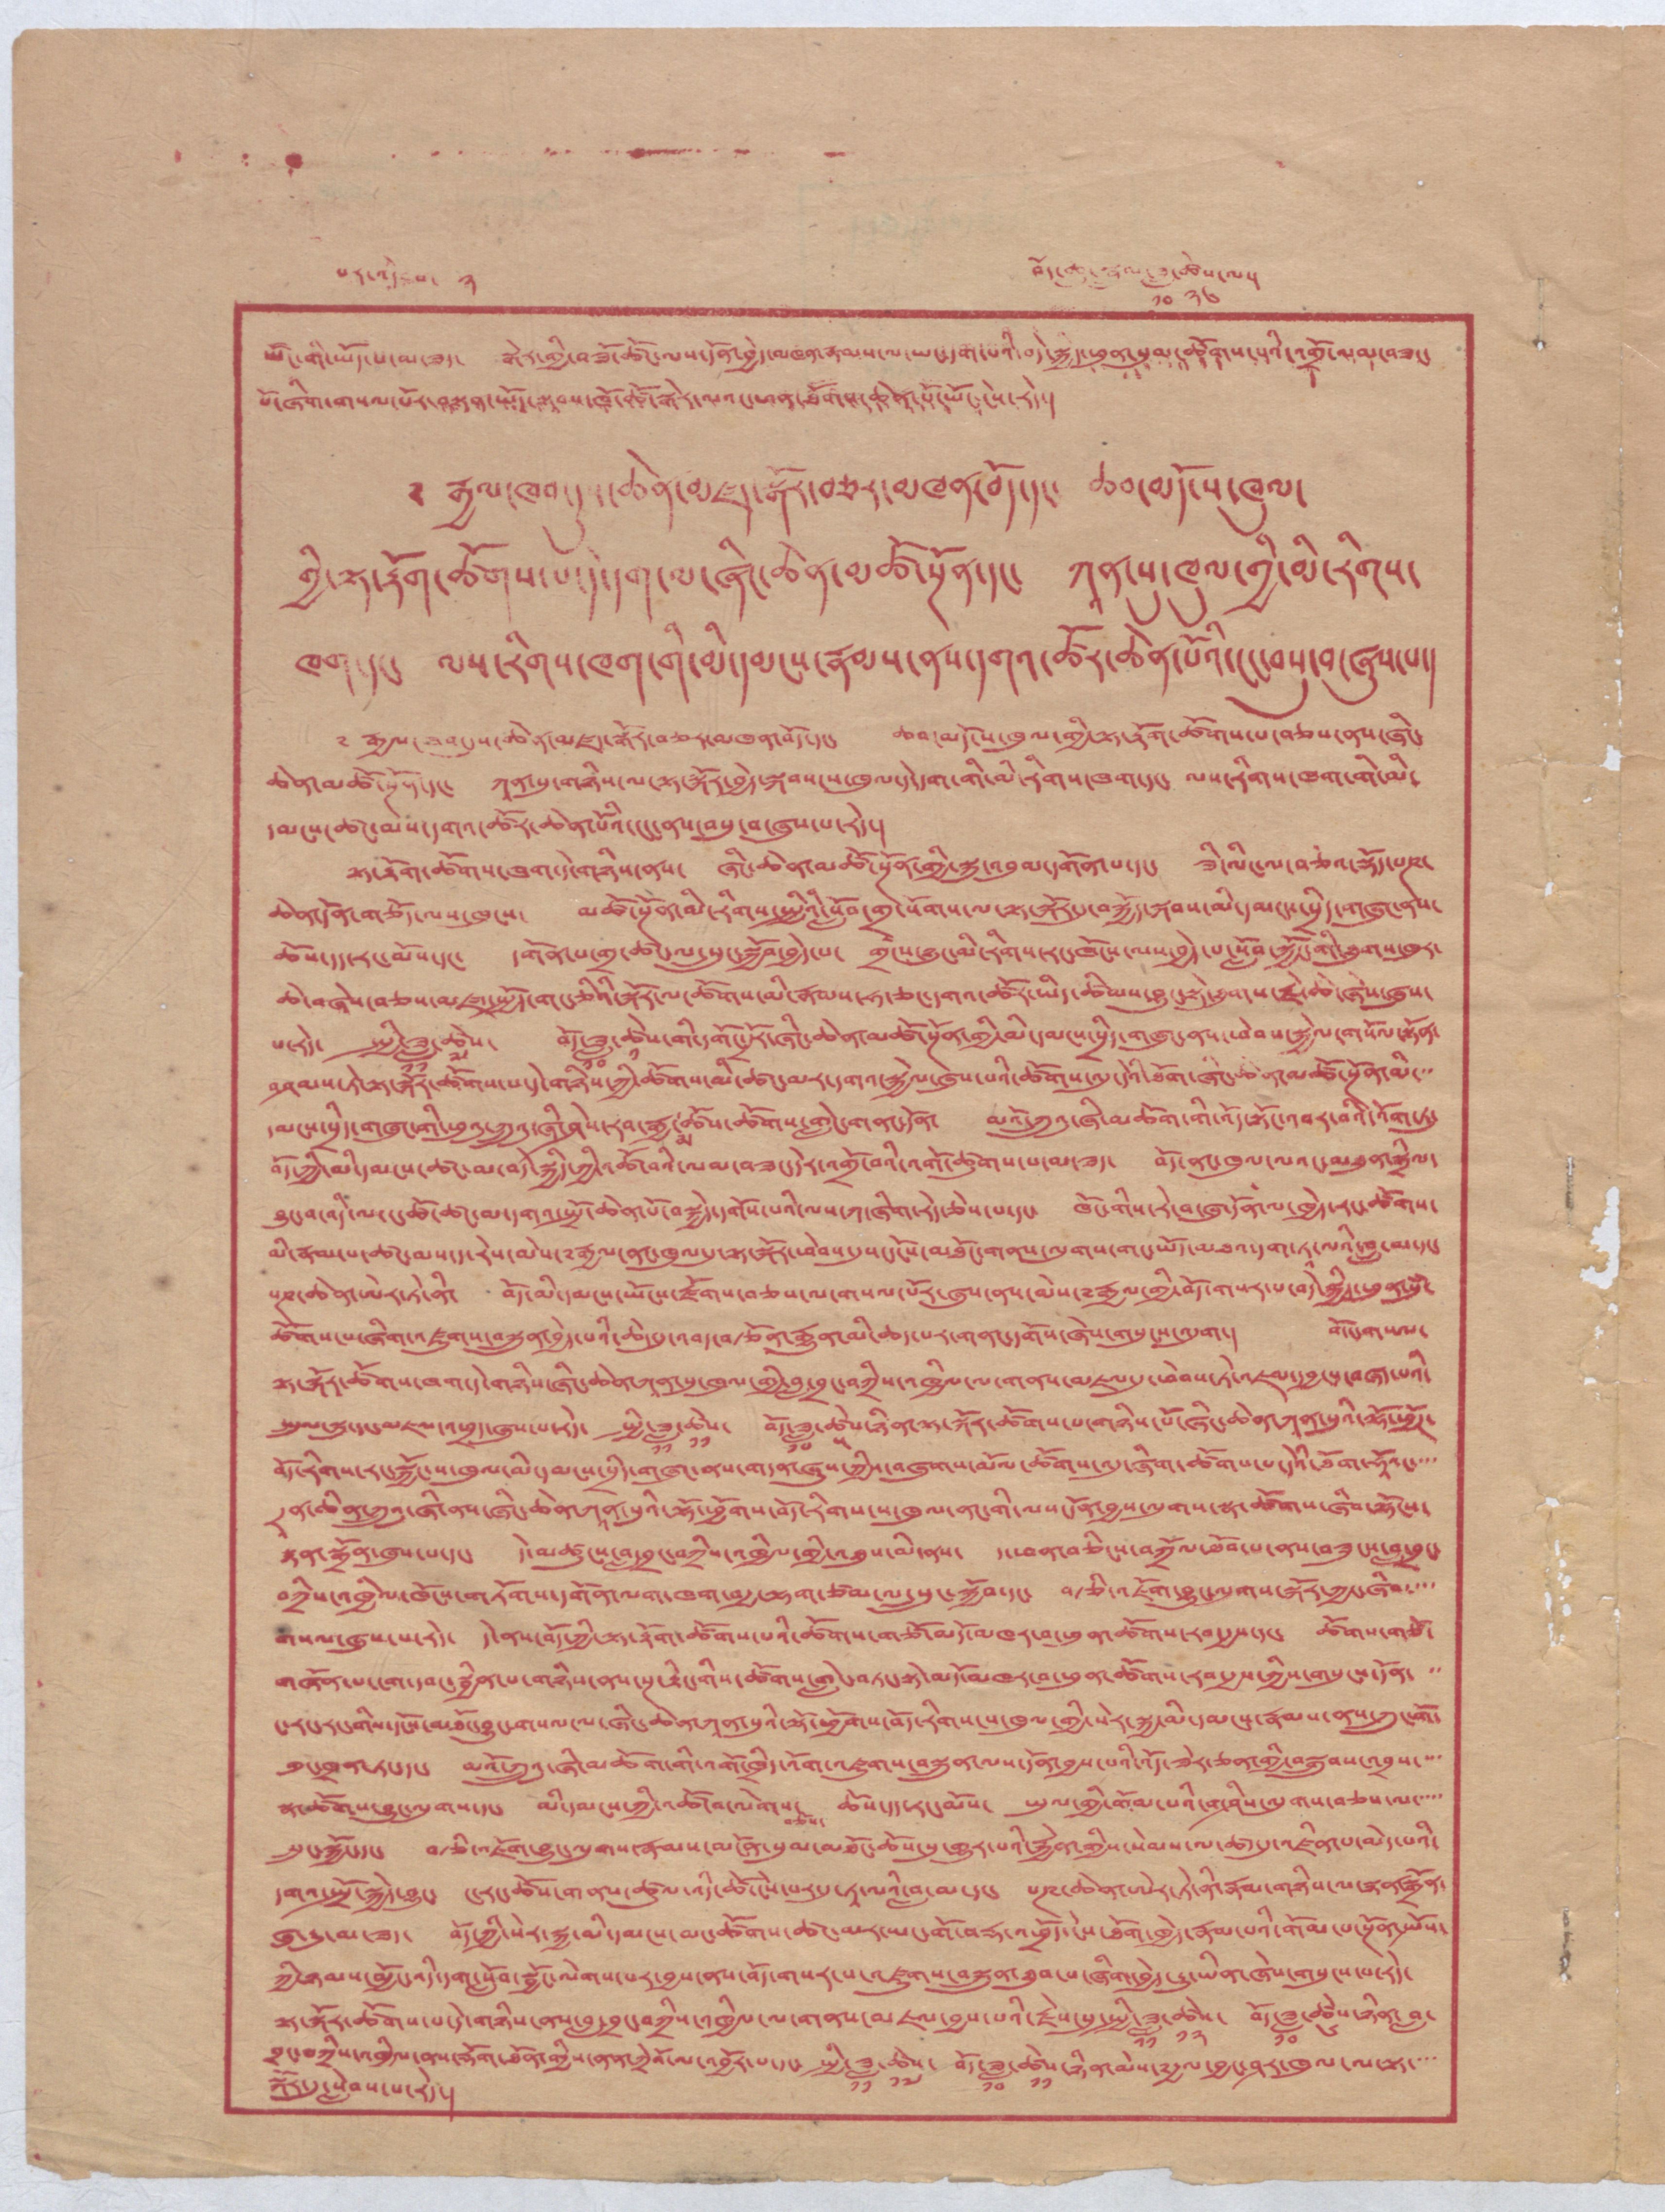པར་འདེབས་ ༣ བོད་ཆུ་སྦྲུལ་ཟླ་
༡༠
ཚེས་
༢༦
ལ།
ཡོང་གི་ཡོད་པ་མ་ཟད་ སྒེར་གྱི་བཟོ་ཚོང་ལས་དོན་བྱེད་མཁན་རྣམས་ལ་ཡང་དག་པའི་བདེ་སྐྱིད་ཕུན་སུམ་ཚོགས་པའི་འགྲོ་ལམ་བཟང་
པོ་ཞིག་གསལ་པོར་བསྟན་ཡོད་སྟབས་ཁོ་ཚོ་སྒེར་ལའང་ཕན་ཐོགས་ཆེན་པོ་ཡོང་ངེས་རེད།
༄ རྒྱལ་ཁབ་དུ་ཆེན་མཛད་སྒོར་བཅར་མཁན་བོད་དང་ ཆབ་མདོ་ས་ཁུལ་
གྱི་ལྟ་རྟོག་ཚོགས་པ་དེ་དག་ལ་ཞིང་ཆེན་མཚོ་སྔོན་དང་ ཀཱན་སུ་ཁུལ་གྱི་མི་རིགས་
ཁག་དང་ ལས་རིགས་ཁག་གི་མི་དམངས་རྣམས་ནས་དགའ་ཚོར་ཆེན་པོའི་ངང་བསུ་བ་ཞུས་པ།
༄ རྒྱལ་ཁབ་དུས་ཆེན་མཛད་སྒོར་བཅར་མཁན་བོད་དང་ ཆབ་མདོ་ས་ཁུལ་གྱི་ལྟ་རྟོག་ཚོགས་པ་བཅས་ནས་ཞིང་
ཆེན་མཚོ་སྔོན་དང་ ཀཱན་སུ་གཉིས་ལ་ལྟ་སྐོར་བྱེད་སྐབས་ས་ཁུལ་དེ་དག་གི་མི་རིགས་ཁག་དང་ ལས་རིགས་ཁག་གི་མི་
དམངས་ཚང་མས་དགའ་ཚོར་ཆེན་པོའི་ངང་ནས་བསུ་བ་ཞུས་རེད།
ལྟ་རྟོག་ཚོགས་ཁག་དེ་གཉིས་ནས་ ཞིང་ཆེན་མཚོ་སྔོན་གྱི་སྐུ་འབུམ་དགོན་པ་དང་ ཟི་ལིང་ལ་བཅས་སྡོད་པཎ་
ཆེན་དོན་གཅོད་ལས་ཁུངས་ མཚོ་སྔོན་མི་རིགས་སྤྱིའི་སློབ་གྲྭ་སོགས་ལ་ལྟ་སྐོར་དུ་བསྐྱོད་སྐབས་མི་དམངས་སྲིད་གཞུང་ནས་
ཆོས་དད་རང་མོས་དང་ དགོན་པ་གྲྭ་ཚང་ལ་སྲུང་སྐྱོབ་བྱེད་པ་ གྲངས་ཉུང་མི་རིགས་རང་ཁོངས་ལས་བྱེད་པ་སློབ་སྐྱོང་གི་ཐུགས་ཁུར་
ཆེ་བཞེས་བཅས་མཛད་སྤྱོད་གང་ཅིའི་སྐོར་ལ་ཚོགས་མི་རྣམས་ཧ་ཅང་དགའ་ཚོར་ཡིད་ཚིམས་བྱུང་སྟེ་ཐུགས་རྗེ་ཆེ་ཞེས་ཞུས་
པ་རེད་ སྤྱི་ཟླ་
༡༡
ཚེས་
༧
བོད་ཟླ་
༡༠
ཚེས་
༡
གི་དགོང་དྲོར་ཞིང་ཆེན་མཚོ་སྔོན་གྱི་མི་དམངས་སྲིད་གཞུང་ནས་ཕེབས་སྐྱེལ་གསོལ་སྟོན་
བཤམས་ཏེ་ལྟར་སྐོར་ཚོགས་པ་དེ་གཉིས་ཀྱི་ཚོགས་མི་ཚང་མར་དགའ་སྐྱེལ་ཞུས་པའི་ཚོགས་ལུ་དེའི་ཐོག་ཞིང་ཆེན་མཚོ་སྔོན་མི་་་
དམངས་སྲིད་གཞུང་གི་ཕུའུ་ཀྲུའུ་ཞི་ཤེས་རབ་རྒྱ་མཚོས་ཚོགས་གླེང་གནང་དོན་ མའོ་ཀྲུའུ་ཞི་མཆོག་གི་འོད་སྟོང་འབར་བའི་འོག་ཏུ་
བོད་ཀྱི་མི་དམངས་ཚང་མ་བདེ་སྐྱིད་ཀྱི་འཚོ་བའི་ལམ་བཟང་དེར་འགྲོ་བའི་འགོ་ཚུགས་པ་མ་ཟད་ བོད་ནང་ཁུལ་ལའང་མཐུན་སྒྲིལ་
བྱུང་བ་འདི་ལ་ང་ཚོ་ཚང་མ་དགའ་སྤྲོ་ཆེན་པོ་བསྐྱེད་དགོས་པའི་ལས་ཀ་ཞིག་རེད་ཅེས་པ་དང་ ཁོང་གིས་རེ་བ་ཞུ་དོན་ལ་ཁྱེད་རང་ཚོགས་
མི་རྣམ་པ་ཚང་མས་ད་རེས་མེས་༸རྒྱལ་ནང་ཁུལ་དུ་ལྟ་སྐོར་ཕེབས་དུས་དངོས་མཐོང་གནས་ལུགས་གང་ཡོད་མཐའ་དག་ཏཱ་ལའི་བླ་མ་དང་
པཎ་ཆེན་ཨེར་ཏེ་ནི་ བོད་མི་དམངས་ཡོངས་རྫོགས་བཅས་ལ་གསལ་པོར་ཞུས་ནས་མེས་༸རྒྱལ་གྱི་བོད་གསར་པ་བདེ་སྐྱིད་ཕུན་སུམ་
ཚོགས་པ་ཞིག་འཛུགས་བསྐུན་བྱེད་པའི་ཆེད་དུ་འབད་བརྩོན་རྒྱུན་མི་ཆད་པར་གནང་དགོས་ཞེས་གསུངས་འདུག། གོང་གསལ་
ལྟ་སྐོར་ཚོགས་ཁག་དེ་གཉིས་ཞིང་ཆེན་ཀཱན་སུ་ཁུལ་གྱི་བླ་བྲང་བཀྲིས་འཁྱིལ་ལ་གནས་འཇལ་དུ་ཕེབས་ཏེ་འཇམ་དབྱངས་བཞད་པའི་
སྤྲུལ་སྐུ་དང་མཇལ་འཕྲད་ཞུས་པ་རེད་ སྤྱི་ཟླ་
༡༡
ཚེས་
༡༡
བོད་ཟླ་
༡༠
ཚེས་
༥
ཉིན་ལྟ་སྐོར་ཚོགས་པ་གཉིས་པོ་ཞིང་ཆེན་ཀཱན་སུའི་ལྷོ་ཕྱོཌ་
བོད་རིགས་རང་སྐྱོང་ས་ཁུལ་མི་དམངས་སྲིད་གཞུང་ནས་གདན་ཞུས་ཀྱིས་བཞུགས་མོལ་ཚོགས་འདུ་ཞིག་ཚོགས་པ་དེའི་ཐོག་ཧཱོའང་་་
དྲན་ཆིན་ཀྲུའུ་ཞི་ནས་ཞིང་ཆེན་ཀཱན་སུའི་ལྷོ་ཕྱོགས་བོད་རིགས་ས་ཁུལ་ནང་གི་ལས་དོན་བྱས་ལུགས་སྣ་ཚོགས་ཞིབ་ལྷོངས་
སྙན་སྒྲོན་ཁུས་པ་དང་ དེ་མཚུངས་བླ་བྲང་བཀྲིས་འཁྱིལ་གྱི་འཐུས་མི་ནས་ དང་ཕན་བཅིངས་བཀྲོལ་ཐོབ་པ་ནས་བཟུངས་བླ་བྲང་
བཀྲིས་འཁྱིལ་ཁོངས་གཏོགས་དགོན་ལག་ཁག་བརྒྱ་ལྷག་ཙམ་ལ་སྲུང་སྐྱོབ་དང་ བརྩི་འཇོག་བྱུང་ལུགས་སྐོར་ཀྱང་ཞིབ་་་
གསལ་ཞུས་པ་རེད་ དེ་ནས་བོད་ཀྱི་སྟ་རྟོག་ཚོགས་པའི་ཚོགས་གཙོ་མདོ་མཁར་བ་ཕུན་ཚོགས་རབ་རྒྱས་དང་ ཚོགས་གཙོ་
གཞོན་པ་ངག་དབང་སྦྱིན་པ་གཉིས་ནས་སྔར་རྟིང་གིས་ཚོགས་གླེང་བཏང་སྟེ་མདོ་མཁར་བ་ཕུན་ཚོགས་རབ་རྒྱས་ཀྱིས་གསུངས་དོན་་་
ང་རང་རང་གིས་དངོས་མཐོང་བྱུང་གསལ་ལ་ཞིང་ཆེན་ཀཱན་སུའི་ལྷོ་ཕྱོགས་བོད་རིགས་ས་ཁུལ་གྱི་སེར་སྐྱ་མི་དམངས་རྣམས་ནས་ཀྲུང་གོ་
གུང་ཁྲན་ཏང་དང་ མའོ་ཀྲུའུ་ཞི་མཆོག་གི་འགོ་ཁྲིད་འོག་འཛུགས་བསྐྲུན་ལས་དོན་བྱས་པའི་འོད་ཟེར་ཅན་གྱི་བསྒྲུབས་འབྲས་་་་
སྣ་ཚོགས་བྱུང་ལུགས་དང་ མི་དམངས་ཀྱི་འཚོ་བ་ལེགས་
བཅས་
ཆོས་དད་རང་མོས་ ཡུལ་གྱི་གོམ་པའི་གཤིས་ལུགས་བཅས་ལ་་་་་
སྲུང་སྐྱོང་དང་ བརྩི་འཇོག་བྱུང་ལུགས་རྣམས་མངོན་སུམ་མཐོང་ཆོས་སུ་གྱུར་པའི་རྐྱེན་གྱིས་སེམས་ལ་ཚད་དུ་འཛིན་པ་མེད་པའི་
དགའ་སྤྲོ་སྐྱེད་བྱུང་ ང་རང་ཆོས་གནས་ཚུལ་འདི་ཚོ་ངེས་པར་དྱ་ཏྰ་ལའི་བླ་མ་དང་ པཎ་ཆེན་ཨེར་ཏེ་ནི་རྣམ་གཉིས་པ་སྙན་སྒྲོན་
ཞུ་རྒྱུ་མ་ཟད་ བོད་ཀྱི་སེར་སྐྱ་མི་དམངས་མང་ཚོགས་ཚང་མར་ཡང་གོ་བརྡ་འཕྲོད་ངེས་ཐོག་ཁྱེད་རྣམ་པའི་གོམ་པ་སྔོན་སྤོས་
ཀྱི་ཉམས་བྱོང་འདི་དག་སློབ་སྦྱོང་ལེགས་པར་བྱས་ནས་བོད་གསར་པ་འཛུགས་བསྐྲུན་ཐུབ་པ་ཞིག་བྱེད་རྒྱུ་ཡིན་ཞེས་གསུངས་པ་རེད་
ལྟ་སྐོར་ཚོགས་པ་དེ་གཉིས་ནས་བླ་བྲང་བཀྲིས་འཁྱིལ་ལ་གནས་མཇལ་བྱས་པའི་རྗེས་སུ་སྤྱི་ཟླ་
༡༡
ཚེས་
༡༢
བོད་ཟླ་
༡༠
ཚེས་
༦
ཉིན་བླ་
བྲང་བཀྲིས་འཁྱིལ་ནས་རྡོག་ཐོན་གྱིས་ནན་ཀྲེའོ་ལ་དང་སྤྱི་ཟླ་
༡༡
ཚེས་
༡༧
བོད་ཟླ་
༡༠
ཚེས་
༡༡
ཉིན་མེས་༸རྒྱལ་བྱང་ཤར་ཁུལ་ལ་ལྟ་་་་
སྐོར་དུ་སླེབས་པ་རེད།
